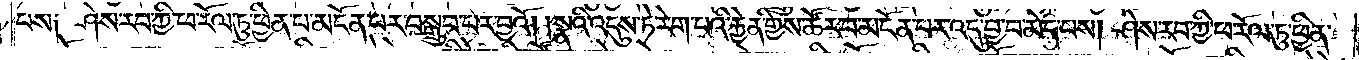པས༑ ཤེས་རབ་ཀྱི་ཕ་རོལ་ཏུ་ཕྱིན་པ་མངོན་པར་བསྒྲུབ་པར་བྱའོ། །སྣའི་འདུས་ཏེ་རེག་བའི་རྐྱེན་གྱིས་ཚོར་བ་མངོན་པར་འདུ་བྱ་བ་མེད་པས། ཤེས་རབ་ཀྱི་ཕ་རོལ་ཏུ་ཕྱིན་
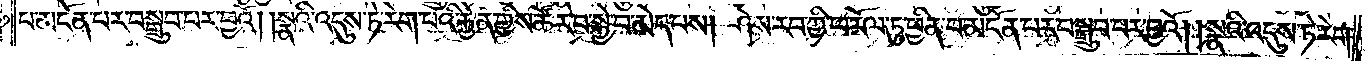པ་མངོན་པར་བསྒྲུབ་པར་བྱའོ། །སྣའི་འདུས་ཏེ་རེག་པའི་རྐྱེན་གྱིས་ཚོར་བ་སྐྱེ་བ་མེད་པས། ཤེས་རབ་ཀྱི་ཕ་རོལ་ཏུ་ཕྱིན་པ་མངོན་པར་བསྒྲུབ་པར་བྱའོ། །སྣའི་འདུས་ཏེ་རེག་
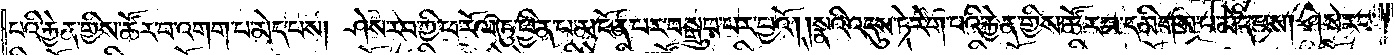པའི་རྐྱེན་གྱིས་ཚོར་བ་འགག་པ་མེད་པས། ཤེས་རབ་ཀྱི་ཕ་རོལ་ཏུ་ཕྱིན་པ་མངོན་པར་བསྒྲུབ་པར་བྱའོ། །སྣའི་འདུས་ཏེ་རེག་པའི་རྐྱེན་གྱིས་ཚོར་བ་དམིགས་པ་མེད་པས། ཤེས་རབ་
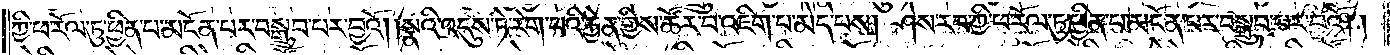ཀྱི་ཕ་རོལ་ཏུ་ཕྱིན་པ་མངོན་པར་བསྒྲུབ་པར་བྱའོ། །སྣའི་འདུས་ཏེ་རེག་པའི་རྐྱེན་གྱིས་ཚོར་བ་འཇིག་པ་མེད་པས། ཤེས་རབ་ཀྱི་ཕ་རོལ་ཏུ་ཕྱིན་པ་མངོན་པར་བསྒྲུབ་པར་བྱའོ༎
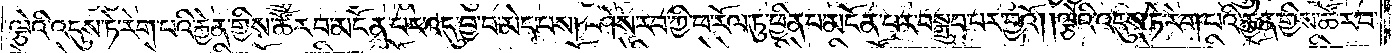ལྕེའི་འདུས་ཏེ་རེག་པའི་རྐྱེན་གྱིས་ཚོར་བ་མངོན་པར་འདུ་བྱ་བ་མེད་པས། ཤེས་རབ་ཀྱི་ཕ་རོལ་ཏུ་ཕྱིན་པ་མངོན་པར་བསྒྲུབ་པར་བྱའོ། །ལྕེའི་འདུས་ཏེ་རེག་པའི་རྐྱེན་གྱིས་ཚོར་བ་
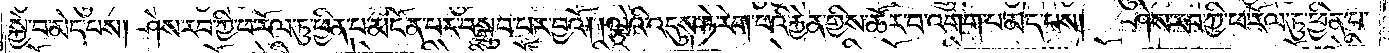སྐྱེ་བ་མེད་པས། ཤེས་རབ་ཀྱི་ཕ་རོལ་ཏུ་ཕྱིན་པ་མངོན་པར་བསྒྲུབ་པར་བྱའོ། །ལྕེའི་འདུས་ཏེ་རེག་པའི་རྐྱེན་གྱིས་ཚོར་བ་འགག་པ་མེད་པས། ཤེས་རབ་ཀྱི་ཕ་རོལ་ཏུ་ཕྱིན་པ་
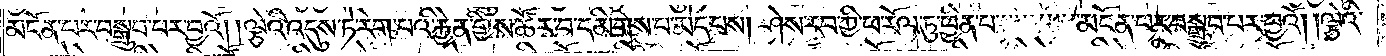མངོན་པར་བསྒྲུབ་པར་བྱའོ། །ལྕེའི་འདུས་ཏེ་རེག་པའི་རྐྱེན་གྱིས་ཚོར་བ་དམིགས་པ་མེད་པས། ཤེས་རབ་ཀྱི་ཕ་རོལ་ཏུ་ཕྱིན་པ་མངོན་པར་བསྒྲུབ་པར་བྱའོ། །ལྕེའི་
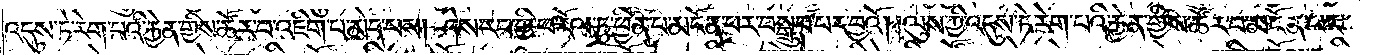འདུས་ཏེ་རེག་པའི་རྐྱེན་གྱིས་ཚོར་བ་འཇིག་པ་མེད་པས། ཤེས་རབ་ཀྱི་ཕ་རོལ་ཏུ་ཕྱིན་པ་མངོན་པར་བསྒྲུབ་པར་བྱའོ། །ལུས་ཀྱི་འདུས་ཏེ་རེག་པའི་རྐྱེན་གྱིས་ཚོར་བ་མངོན་པར་
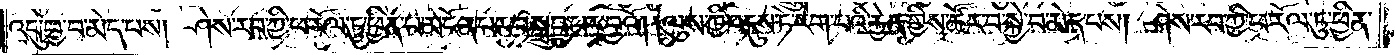འདུ་བྱ་བ་མེད་པས། ཤེས་རབ་ཀྱི་ཕ་རོལ་ཏུ་ཕྱིན་པ་མངོན་པར་བསྒྲུབ་པར་བྱའོ། །ལུས་ཀྱི་འདུས་ཏེ་རེག་པའི་རྐྱེན་གྱིས་ཚོར་བ་སྐྱེ་བ་མེད་པས། ཤེས་རབ་ཀྱི་ཕ་རོལ་ཏུ་ཕྱིན་
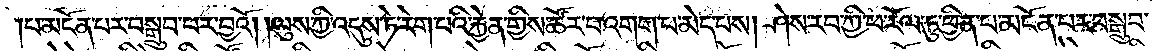པ་མངོན་པར་བསྒྲུབ་པར་བྱའོ། །ལུས་ཀྱི་འདུས་ཏེ་རེག་པའི་རྐྱེན་གྱིས་ཚོར་བ་འགག་པ་མེད་པས། ཤེས་རབ་ཀྱི་ཕ་རོལ་ཏུ་ཕྱིན་པ་མངོན་པར་བསྒྲུབ་
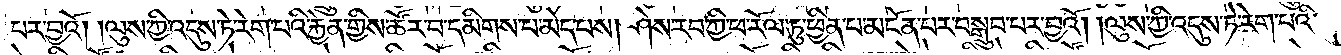པར་བྱའོ། །ལུས་ཀྱི་འདུས་ཏེ་རེག་པའི་རྐྱེན་གྱིས་ཚོར་བ་དམིགས་པ་མེད་པས། ཤེས་རབ་ཀྱི་ཕ་རོལ་ཏུ་ཕྱིན་པ་མངོན་པར་བསྒྲུབ་པར་བྱའོ། །ལུས་ཀྱི་འདུས་ཏེ་རེག་པའི་
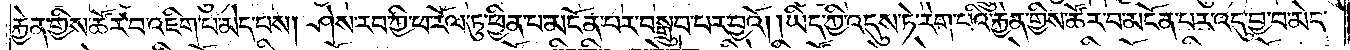རྐྱེན་གྱིས་ཚོར་བ་འཇིག་པ་མེད་པས། ཤེས་རབ་ཀྱི་ཕ་རོལ་ཏུ་ཕྱིན་པ་མངོན་པར་བསྒྲུབ་པར་བྱའོ། །ཡིད་ཀྱི་འདུས་ཏེ་རེག་པའི་རྐྱེན་གྱིས་ཚོར་བ་མངོན་པར་འདུ་བྱ་བ་མེད་
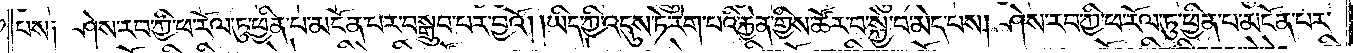པས༑ ཤེས་རབ་ཀྱི་ཕ་རོལ་ཏུ་ཕྱིན་པ་མངོན་པར་བསྒྲུབ་པར་བྱའོ། ། ཡིད་ཀྱི་འདུས་ཏེ་རེག་པའི་རྐྱེན་གྱིས་ཚོར་བ་སྐྱེ་བ་མེད་པས། ཤེས་རབ་ཀྱི་ཕ་རོལ་ཏུ་ཕྱིན་པ་མངོན་པར་
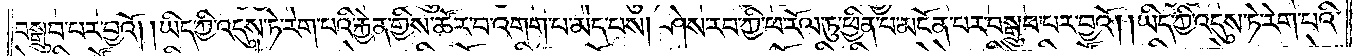བསྒྲུབ་པར་བྱའོ། །ཡིད་ཀྱི་འདུས་ཏེ་རེག་པའི་རྐྱེན་གྱིས་ཚོར་བ་འགག་པ་མེད་པས། ཤེས་རབ་ཀྱི་ཕ་རོལ་ཏུ་ཕྱིན་པ་མངོན་པར་བསྒྲུབ་པར་བྱའོ། །ཡིད་ཀྱི་འདུས་ཏེ་རེག་པའི་
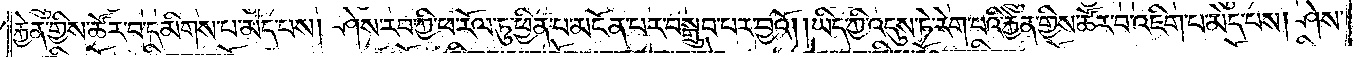རྐྱེན་གྱིས་ཚོར་བ་དམིགས་པ་མེད་པས། ཤེས་རབ་ཀྱི་ཕ་རོལ་ཏུ་ཕྱིན་པ་མངོན་པར་བསྒྲུབ་པར་བྱའོ། །ཡིད་ཀྱི་འདུས་ཏེ་རེག་པའི་རྐྱེན་གྱིས་ཚོར་བ་འཇིག་པ་མེད་པས། ཤེས་
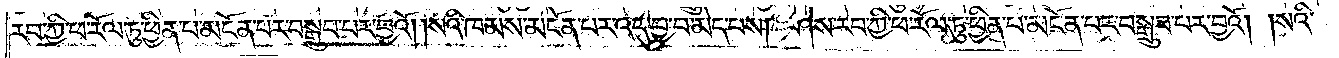རབ་ཀྱི་ཕ་རོལ་ཏུ་ཕྱིན་པ་མངོན་པར་བསྒྲུབ་པར་བྱའོ། །སའི་ཁམས་མངོན་པར་འདུ་བྱ་བ་མེད་པས། ཤེས་རབ་ཀྱི་ཕ་རོལ་ཏུ་ཕྱིན་པ་མངོན་པར་བསྒྲུབ་པར་བྱའོ། །སའི་
